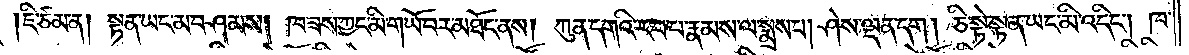ཇི་ཙམ་ན། སྟན་ཡང་མ་བཤམས། ཁ་ཟས་ཀྱང་མི་གཡོ་བར་མཐོང་ནས། ཀུན་དགའི་ར་བ་པ་རྣམས་ལ་སྨྲས་པ། ཤེས་ལྡན་དག །ཅི་སྟེ་སྟན་ཡང་མི་འདིང༌། ཁ་
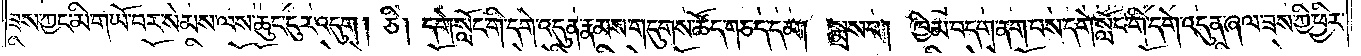ཟས་ཀྱང་མི་གཡོ་བར་སེམས་ལས་ཆུང་ངུར་འདུག །ཅི། དགེ་སློང་གི་དགེ་འདུན་རྣམས་གདུགས་ཚོད་གཅད་དམ། སྨྲས་པ། ཁྱིམ་བདག་ནག་པས་དགེ་སློང་གི་དགེ་འདུན་ཞལ་ཟས་ཀྱི་ཕྱིར་
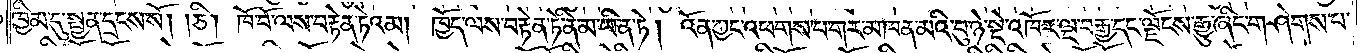ཁྱིམ་དུ་སྤྱན་དྲངས་སོ། །ཅི། ཁོ་བོ་ལས་བརྟེན་ཏེའམ། ཁྱོད་ལས་བརྟེན་ཏེ་ནི་མ་ཡིན་ཏེ། འོན་ཀྱང་འཕགས་པ་གར་མཁན་མའི་བུ་ཉེ་སྡེ་འཁོར་ལྔ་བརྒྱ་དང་ལྗོངས་རྒྱུ་ཞིང་གཤེགས་པ་
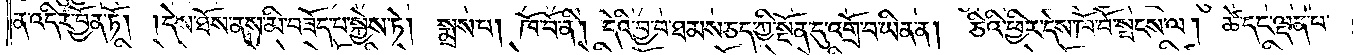ན་འདིར་བྱོན་ཏོ། །དེས་ཐོས་ནས་མི་བཟོད་པ་སྐྱེས་ཏེ། སྨྲས་པ། ཁོ་བོ་ནི། དེའི་བྱ་བ་ཐམས་ཅད་ཀྱི་སྔོན་དུ་འགྲོ་བ་ཡིན་ན། ཅིའི་ཕྱིར་དེས་ཁོ་བོ་སྤངས་ལ། ཚེ་དང་ལྡན་པ་
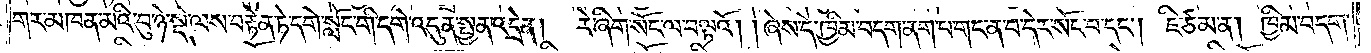གར་མཁན་མའི་བུ་ཉེ་སྡེ་ལས་བརྟེན་ཏེ་དགེ་སློང་གི་དགེ་འདུན་སྤྱན་འདྲེན། རེ་ཞིག་སོང་ལ་བལྟའོ། །ཞེས་དེ་ཁྱིམ་བདག་ནག་པ་གང་ན་བ་དེར་སོང་བ་དང༌། ཇི་ཙམ་ན། ཁྱིམ་བདག་
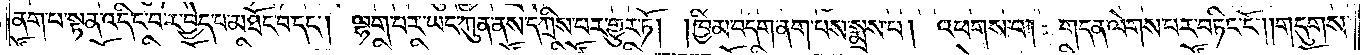ནག་པ་སྟན་འདིང་བར་བྱེད་པ་མཐོང་བ་དང༌། ལྷག་པར་ཡང་ཀུན་ནས་དཀྲིས་པར་གྱུར་ཏོ། །ཁྱིམ་བདག་ནག་པས་སྨྲས་པ། འཕགས་པ། གདན་ལེགས་པར་བཏིང་ངོ༌། །གདུགས་
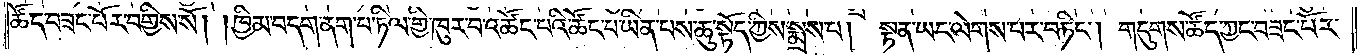ཚོད་བཟང་པོར་བགྱིས་སོ། །ཁྱིམ་བདག་ནག་པ་ཏིལ་གྱི་ཁུར་བ་འཚོང་བའི་ཚོང་པ་ཡིན་པས་ཆུ་སྟོད་ཀྱིས་སྨྲས་པ། སྟན་ཡང་ལེགས་པར་བཏིང༌། གདུགས་ཚོད་ཀྱང་བཟང་པོར་
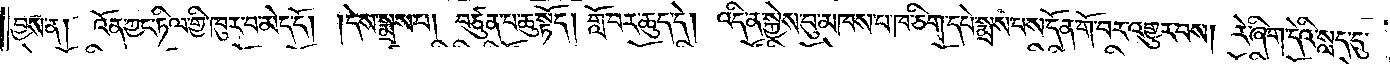བྱས་ན། འོན་ཀྱང་ཏིལ་གྱི་ཁུར་བ་མེད་དོ། །དེས་སྨྲས་པ། བཙུན་པ་ཆུ་སྟོད། གློ་བར་ཆུད་དེ། འདི་ན་སྐྱེས་བུ་མཁན་པ་ཁ་ཅིག་དཔེ་སྨྲས་པས་དོན་གོ་བར་འགྱུར་བས། རེ་ཞིག་དེའི་སླད་དུ་
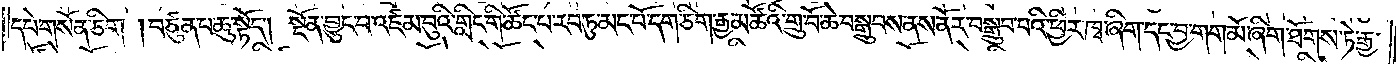དཔེ་གསོན་ཅིག །བཙུན་པ་ཆུ་སྟོད། སྔོན་བྱུང་བ་འཛམ་བུའི་གླིང་གི་ཚོང་པ་རབ་ཏུ་མང་པོ་དག་ཅིག་རྒྱ་མཚོའི་གྲུ་བོ་ཆེ་བསྒྲུབས་ནས་ནོར་བསྒྲུབ་པའི་ཕྱིར་ཁྭ་ཞིག་དང་བྱ་གག་མོ་ཞིག་ཐོགས་ཏེ་རྒྱ་
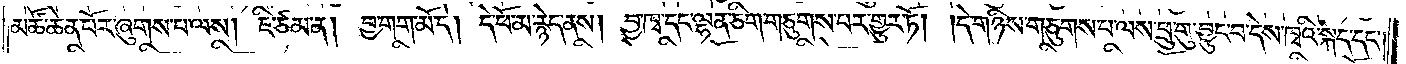མཚོ་ཆེན་པོར་ཞུགས་པ་ལས། ཇི་ཙམ་ན། བྱ་གག་མོ་དེ། དེ་ཕོ་མ་རྙེད་ནས། བྱ་ཁྭ་དང་ལྷན་ཅིག་གཅུགས་པར་གྱུར་ཏོ། །དེ་གཉིས་གཅུགས་པ་ལས་ཕྲུ་གུ་བྱུང་བ་དེས་ཁྭའི་སྐད་དང༌།
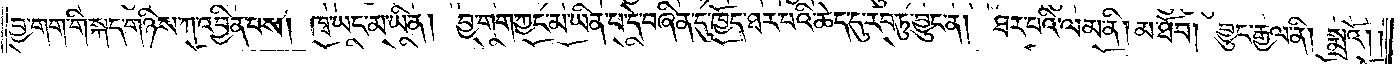བྱ་གག་གི་སྐད་གཉིས་ཀ་འབྱིན་པས། ཁྭ་ཡང་མ་ཡིན། བྱ་གག་ཀྱང་མ་ཡིན་པ་དེ་བཞིན་དུ་ཁྱོད་ཐར་པའི་ཆེད་དུ་རབ་ཏུ་བྱུང་ན། ཐར་པའི་ལམ་ནི། མ་ཐོབ། བྱུང་རྒྱལ་ནི། སྨྲའོ། །
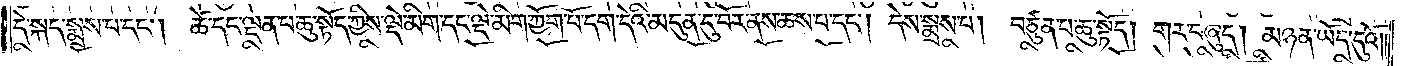དེ་སྐད་སྨྲས་པ་དང༌། ཚེ་དང་ལྡན་པ་ཆུ་སྟོད་ཀྱིས་ལྡེ་མིག་དང་ལྡེ་མིག་ཀྱོག་པོ་དག་དེའི་མདུན་དུ་བོར་ནས་ཆས་པ་དང༌། དེས་སྨྲས་པ། བཙུན་པ་ཆུ་སྟོད། གར་བཞུད། མཉན་ཡོད་དུའོ། །
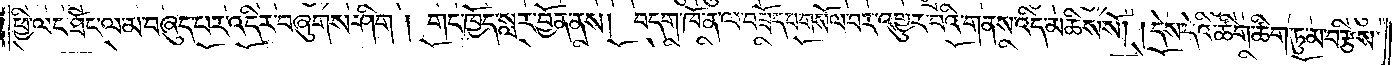ཕྱི་ལང་ཐོང་ལ་མ་བཞུད་པར་འདིར་བཞུགས་ཤིག །གང་ཁྱོད་སླར་བྱོན་ནས། བདག་ཁོ་ན་ལ་བཟོད་པ་གསོལ་བར་འགྱུར་བའི་གནས་འདི་མཆིས་སོ། །དེས་དེའི་ཚིག་ཚིག་ཏུ་མ་བརྩིས་
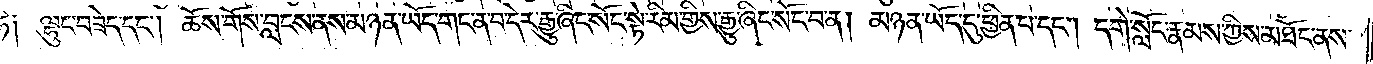ཏེ། ལྷུང་བཟེད་དང༌། ཆོས་གོས་བླངས་ནས་མཉན་ཡོད་གང་ན་བ་དེར་རྒྱུ་ཞིང་སོང་སྟེ་རིམ་གྱིས་རྒྱུ་ཞིང་སོང་བ་ན། མཉན་ཡོད་དུ་ཕྱིན་པ་དང༌། དགེ་སློང་རྣམས་ཀྱིས་མཐོང་ནས་
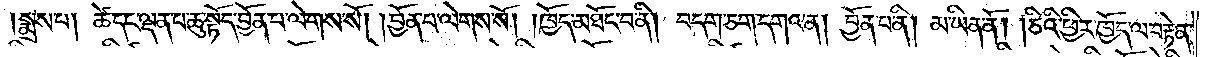།སྨྲས་པ། ཚེ་དང་ལྡན་པ་ཆུ་སྟོད་བྱོན་པ་ལེགས་སོ། །བྱོན་པ་ལེགས་སོ། །ཁྱོད་མཐོང་བ་ནི། བདག་ཅག་དགའ་ན། བྱོན་པ་ནི། མ་ཡིན་ནོ། །ཅིའི་ཕྱིར་ཁྱོད་ལ་བརྟེན་
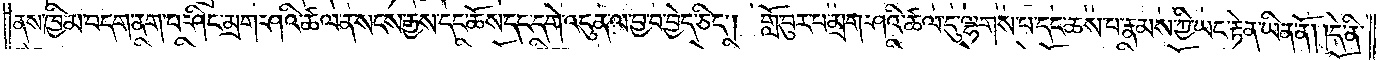ནས་ཁྱིམ་བདག་ནག་པ་ཤིང་མྲག་ཤའི་ཚལ་ན་སངས་རྒྱས་དང་ཆོས་དང་དགེ་འདུན་ལ་བྱ་བ་བྱེད་ཅིང༌། གློ་བུར་པ་མྲག་ཤའི་ཚལ་དུ་ལྷགས་པ་དང་ཆས་པ་རྣམས་ཀྱི་ཡང་རྟེན་ཡིན་ནོ། །དེ་ནི་
